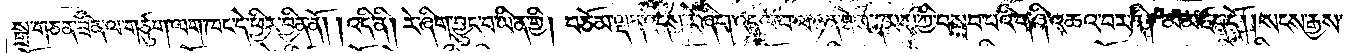སྒྲ་གཅན་ཟིན་ལ་གཙུག་ལག་ཁང་དེ་ཕྱིར་བྱིན་ནོ། །འདི་ནི། རེ་ཞིག་བྱུང་བ་ཡིན་གྱི། བཅོམ་ལྡན་འདས་རེ་ཞིག་འདུལ་བ་ལ་ཉན་ཐོས་རྣམས་ཀྱི་བསླབ་པའི་གཞི་འཆའ་བར་ནི། མ་མཛད་དོ། །སངས་རྒྱས་
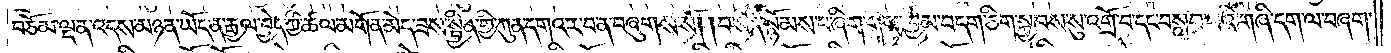བཅོམ་ལྡན་འདས་མཉན་ཡོད་ན་རྒྱལ་བྱེད་ཀྱི་ཚལ་མགོན་མེད་ཟས་སྦྱིན་གྱི་ཀུན་དགའ་ར་བ་ན་བཞུགས་སོ། །བསོད་སྙོམས་པ་ཞིག་གིས་ཁྱིམ་བདག་ཅིག་སྐྱབས་སུ་འགྲོ་བ་དང་བསླབ་པའི་གཞི་དག་ལ་བཞག་
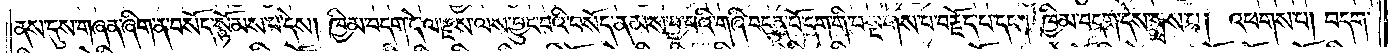ནས་དུས་གཞན་ཞིག་ན་བསོད་སྙོམས་པ་དེས། ཁྱིམ་བདག་དེ་ལ་རྫས་ལས་བྱུང་བའི་བསོད་ནམས་བྱ་བའི་གཞི་བདུན་པོ་དག་གི་བསྔགས་པ་བརྗོད་པ་དང༌། ཁྱིམ་བདག་དེས་སྨྲས་པ། འཕགས་པ། བདག་
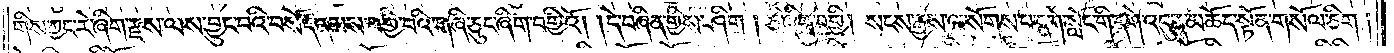གིས་ཀྱང་རེ་ཞིག་རྫས་ལས་བྱུང་བའི་བསོད་ནམས་བགྱི་བའི་གཞི་ཅུང་ཞིག་བགྱིའོ། །དེ་བཞིན་གྱིས་ཤིག། ཅི་ཞིག་བགྱི། སངས་རྒྱས་ལ་སོགས་པ་དགེ་སློང་གི་དགེ་འདུན་མཆོད་སྟོན་གསོལ་ཅིག།
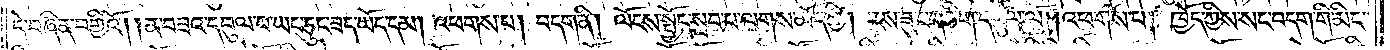དེ་བཞིན་བགྱིའོ། །ན་བཟའ་དབུལ་བ་ཡང་ཅུང་ཟད་ཡོད་དམ། འཕགས་པ། བདག་ནི། ལོངས་སྤྱོད་སྲབ་པ་ལགས་མོད་ཀྱི། རས་ཟུང་གཅིག་དབུལ་ལོ། །འཕགས་པ། ཁྱོད་ཀྱིས་སང་བདག་གི་མིང་
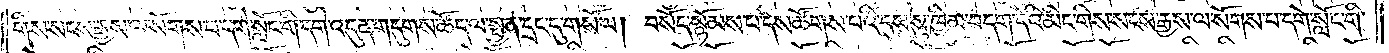གིས་སངས་རྒྱས་ལ་སོགས་པ་དགེ་སློང་གི་དགེ་འདུན་གདུགས་ཚོད་ལ་སྤྱན་དྲང་དུ་གསོལ། བསོད་སྙོམས་པ་དེས་ཚོགས་པའི་དུས་སུ་ཁྱིམ་བདག་དེའི་མིང་གིས་སངས་རྒྱས་ལ་སོགས་པ་དགེ་སློང་གི་
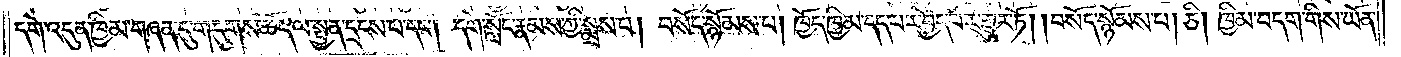དགེ་འདུན་ཁྱིམ་གཞན་དུ་གདུགས་ཚོད་ལ་སྤྱན་དྲངས་པ་དང༌། དགེ་སློང་རྣམས་ཀྱི་སྨྲས་པ། བསོད་སྙོམས་པ། ཁྱོད་ཁྱིམ་དད་པར་བྱེད་པར་གྱུར་ཏོ། །བསོད་སྙོམས་པ། ཅི། ཁྱིམ་བདག་གིས་ཡོན་
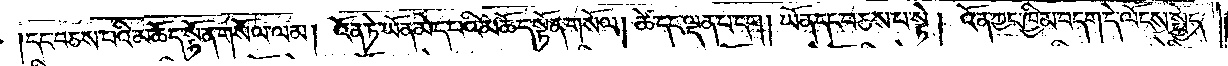དང་བཅས་པའི་མཆོད་སྟོན་གསོལ་ལམ། འོན་ཏེ་ཡོན་པ་མེད་པའི་མཆོད་སྟོན་གསོལ། ཚེ་དང་ལྡན་པ་དག། ཡོན་དང་བཅས་པ་སྟེ། འོན་ཀྱང་ཁྱིམ་བདག་དེ་ལོངས་སྤྱོད་
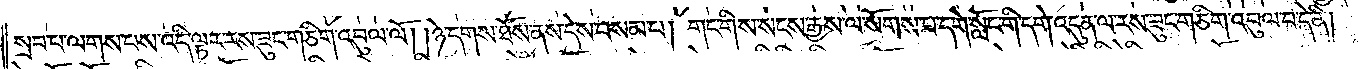སྲབ་པ་ལགས་པས་འདི་ལྟར་རས་ཟུང་གཅིག་འབུལ་ལོ། །ཉེ་དགས་ཐོས་ནས་དེས་བསམ་པ། གང་གིས་སངས་རྒྱས་ལ་སོགས་པ་དགེ་སློང་གི་དགེ་འདུན་ལ་རས་ཟུང་གཅིག་འབུལ་བ་དེ་ནི།
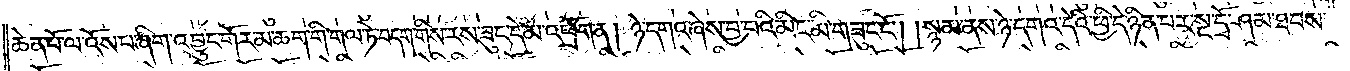ཆེན་པོ་ལ་འོས་པ་ཞིག་འབྱུང་གོར་མ་ཆག་གི་གལ་ཏེ་བདག་གིས་རས་ཟུང་དེ་མ་འཕྲོག་ན། ཉེ་དགའ་ཞེས་བྱ་བའི་མིང་མི་གཟུང་ངོ༌། །སྙམ་ནས་ཉེ་དགའ་དེའི་ཕྱི་དེ་ཉིན་པར་སྔ་དྲོ་ཤམ་ཐབས་
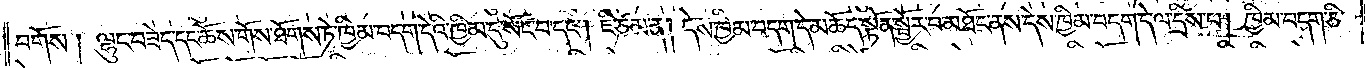བགོས། ལྷུང་བཟེད་དང་ཆོས་གོས་ཐོགས་ཏེ་ཁྱིམ་བདག་དེའི་ཁྱིམ་དུ་སོང་བ་དང༌། ཇི་ཙམ་ན། དེས་ཁྱིམ་བདག་དེ་མཆོད་སྟོན་སྦྱོར་བ་མཐོང་ནས་དེས་ཁྱིམ་བདག་དེ་ལ་དྲིས་པ། ཁྱིམ་བདག་ཅི་
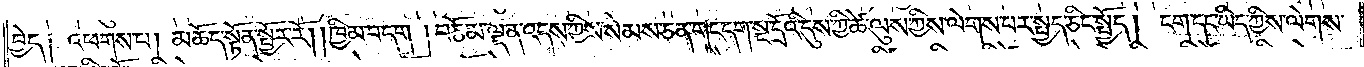བྱེད། འཕགས་པ། མཆོད་སྟོན་སྦྱོར་རོ། །ཁྱིམ་བདག །བཅོམ་ལྡན་འདས་ཀྱིས་སེམས་ཅན་གང་དག་སྔ་དྲོའི་དུས་ཀྱི་ཚེ་ལུས་ཀྱིས་ལེགས་པར་སྤྱད་ཅིང་སྤྱོད། ངག་དང་ཡིད་ཀྱིས་ལེགས་
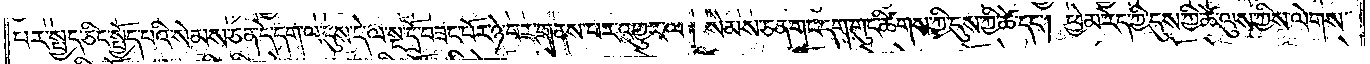པར་སྤྱད་ཅིང་སྤྱོད་པའི་སེམས་ཅན་དེ་དག་ལ་དུས་དེ་ལ་སྔ་དྲོ་བཟང་པོར་ཉེ་བར་གནས་པར་འགྱུར་ལ། སེམས་ཅན་གང་དག་གུང་ཚིགས་ཀྱི་དུས་ཀྱི་ཚེ་དང༌། ཕྱེ་མ་རེད་ཀྱི་དུས་ཀྱི་ཚེ་ལུས་ཀྱིས་ལེགས་
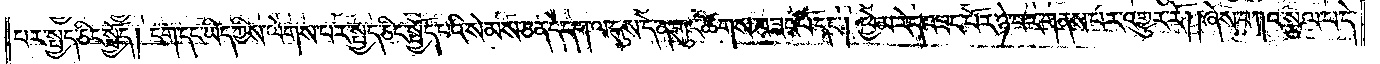པར་སྤྱད་ཅིང་སྤྱོད། ངག་དང་ཡིད་ཀྱིས་ལེགས་པར་སྤྱད་ཅིང་སྤྱོད་པའི་སེམས་ཅན་དེ་དག་ལ་དུས་དེ་ན་གུང་ཚིགས་བཟང་པོ་དང༌། ཕྱེ་མ་རེད་བཟང་པོར་ཉེ་བར་གནས་པར་འགྱུར་རོ། །ཞེས་བཀའ་སྩལ་པ་དེ་
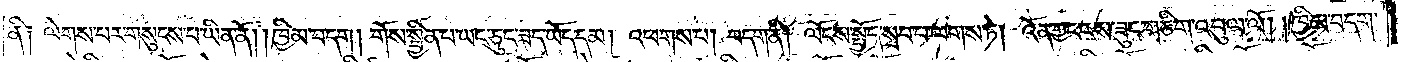ནི༑ ལེགས་པར་གསུངས་པ་ཡིན་ནོ། །ཁྱིམ་བདག། གོས་སྦྱིན་པ་ཡང་ཅུང་ཟད་ཡོད་དམ། འཕགས་པ། བདག་ནི། ལོངས་སྤྱོད་སྲབ་པ་ལགས་ཏེ། འོན་ཀྱང་རས་ཟུང་གཅིག་འབུལ་ལོ། །ཁྱིམ་བདག་
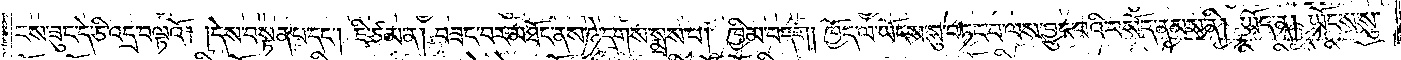རས་ཟུང་དེ་ཅི་འདྲ་བལྟའོ། །དེས་བསྟན་པ་དང༌། ཇི་ཙམ་ན། བཟང་བར་མཐོང་ནས་ཉེ་དགས་སྨྲས་པ། ཁྱིམ་བདག། ཁྱོད་ལ་ཡོངས་སུ་བཏང་བ་ལས་བྱུང་བའི་བསོད་ནམས་ནི། ཡོད་ན། ཡོངས་སུ་
